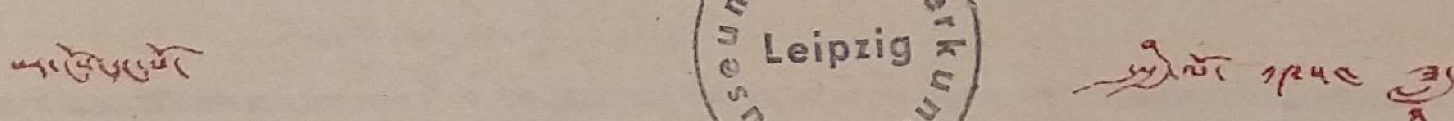པར་ངོས་དང་པོ་ སྤྱི་ལོ་ ༡༩༥༤ ཟླ་
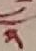༢
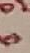༦
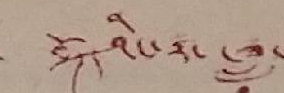བོད་ཤིང་རྟ་ཟླ་
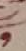༡
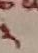༣
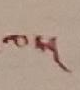ལ་།
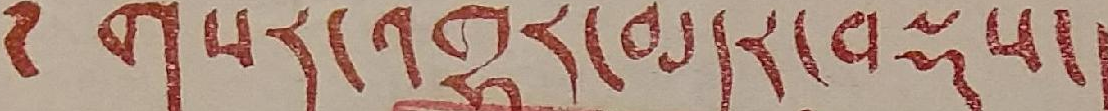༅ གསར་འགྱུར་མདོར་བསྡུས་།
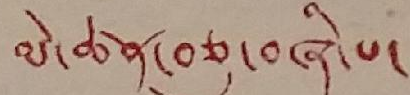ལེ་ཚན་བཅུ་བཞི་པ་
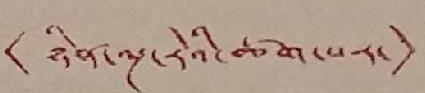<ཉིན་ལྔ་རེའི་ཚག་པར་>
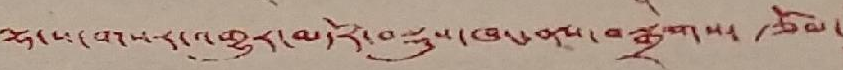ལྷ་ས་གསར་འགྱུར་མདོར་བསྡུས་ཁང་ནས་བསྒྲིགས་རྩོམ་
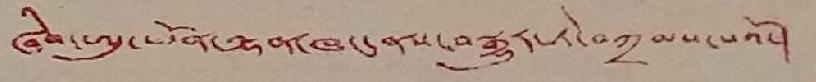ཞིབ་ཨུ་ཡོན་ལྷན་ཁང་ནས་བསྒྱུར་ཏེ་བཀྲམས་པའོ་།
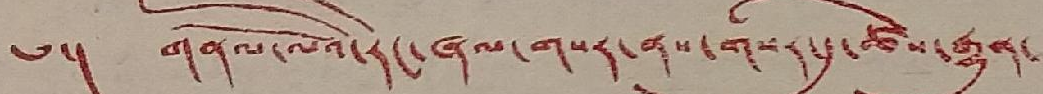༄། གནམ་ལོའི་རང་ཞལ་གསར་ནས་གསར་དུ་ཚེས་རྒྱུན་
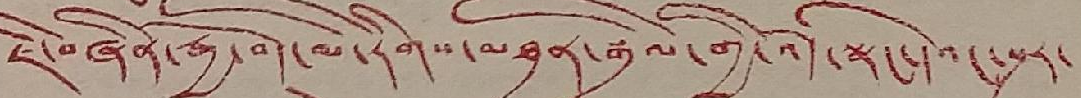ཇི་བཞིན་རྒྱ་བོད་མི་རིགས་མཐུན་སྒྲིལ་གྱི་འོད་སྣང་དེའང་སྔར་
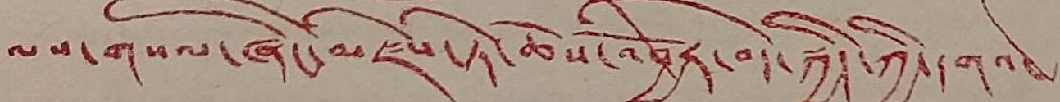ལས་གསལ་ཞིང་མཛེས་ཏེ་ཆོས་འབྱོར་བདེ་སྐྱིད་ཀྱི་དགའ་
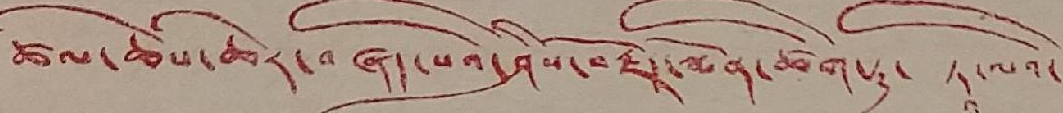ཚལ་ཆེས་ཆེར་བཞད་པའི་ཤེས་བརྗོད་སྨོན་ཚིག་ཏུ་ ཏཱ་ལའི་
